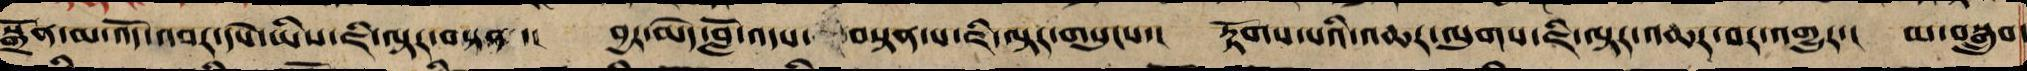སྒྲོན་མ་འོད་འབར་དཔེ་ཡིས་ཇི་ལྟར་བསྟན་། བྱར་མེད་བློ་འདས་ བསྟན་པ་ཇི་ལྟར་གསུངས་། རྟོགས་པའི་འཆར་ལུགས་ཇི་ལྟར་འཆར་བར་འགྱུར་། མ་བསྒྲུབ་
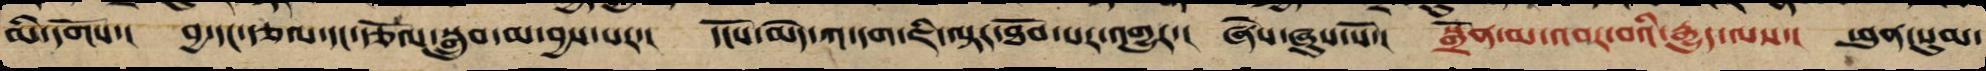མི་དགོས་། བྱ་དང་རྩལ་དང་རྩོལ་སྒྲུབ་མ་བྱས་པར་། དངོས་མེད་ཀ་དག་ཇི་ལྟར་ཐོབ་པར་འགྱུར་། ཞེས་ཞུས་སོ་། སྒྲོན་མ་འབར་བའི་རྒྱུད་ལས་། ཕུན་སུམ་
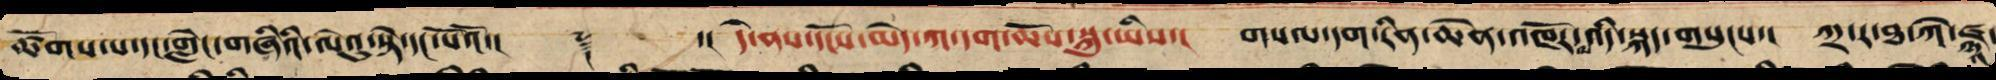ཚོགས་པ་དང་གླེང་གཞིའི་ལེའུ་སྟེ་དང་པོའོ་།། ༈ ་།། དེ་ནས་དངོས་མེད་ཀ་དག་ཆོས་སྐུ་ཡིས་། གསལ་དག་རིན་ཆེན་འཁོར་ལ་འདི་སྐད་གསུངས་། ཀྲ་ར་ཐ་ཀེ་ཛྙཱ་
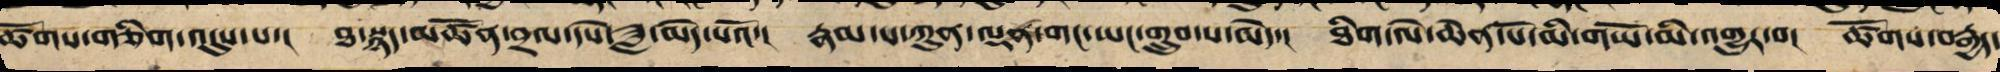ཚོགས་གཅིག་འདུས་པ་། ཐ་སྙད་མཚོན་བྲལ་དཔེ་ཟླ་མེད་པའོ་། རྣམ་པ་ཀུན་ལྡན་གང་ཡང་གྲུབ་པ་མེད་། ཐིག་ལེ་ཆེན་པོ་མི་གཡོ་མི་འགྱུར་བ་། ཚོགས་བརྒྱད་
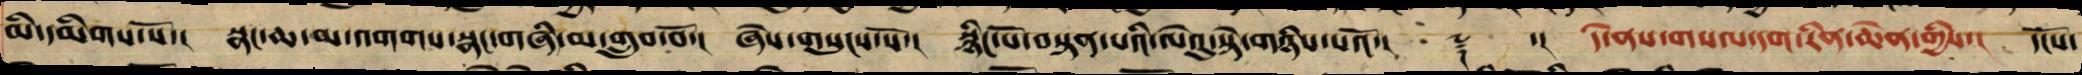མི་དམིགས་སོ་། སྣང་ཆ་མ་འགགས་སྣང་གཞི་མ་གྲུབ་བོ་། ཞེས་གསུངས་སོ་། སྙིང་པོ་བསྟན་པའི་ལེའུ་སྟེ་གཉིས་པའོ་།། ༈ ་། དེ་ནས་གསལ་དག་རིན་ཆེན་གྱིས་། དངོས་
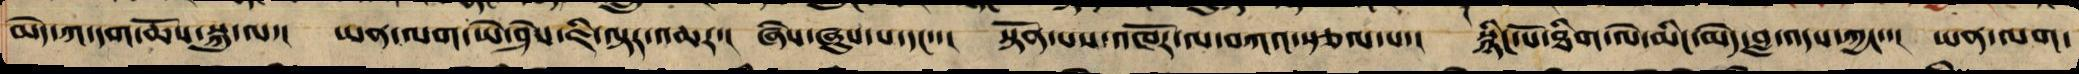མེད་ཀ་དག་ཆོས་སྐུ་ལ་། ཡན་ལག་ཡེ་ཤེས་ཇི་ལྟར་འཆར་། ཞེས་ཞུས་པ་དང་་། སྟོན་པས་འཁོར་ལ་བཀའ་སྩལ་པ་། སྙིང་པོ་ཐིག་ལེ་མིང་མེད་བློ་འདས་ཀྱང་་། ཡན་ལག་
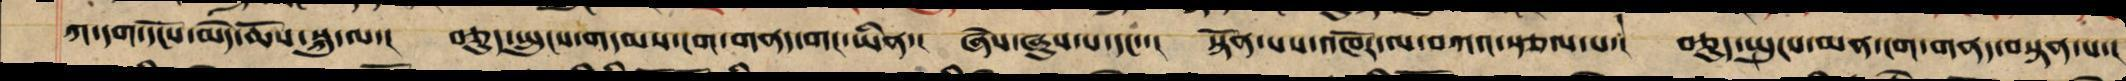ཀ་དག་དངོས་མེད་ཆོས་སྐུ་ལ་། བཅུད་སྤུངས་གདམས་ངག་གནད་གང་ཡིན་། ཞེས་ཞུས་པ་དང་་། སྟོན་པས་འཁོར་ལ་བཀའ་སྩལ་པ་། བཅུད་སྤུངས་མན་ངག་གནད་བསྟན་པ་།
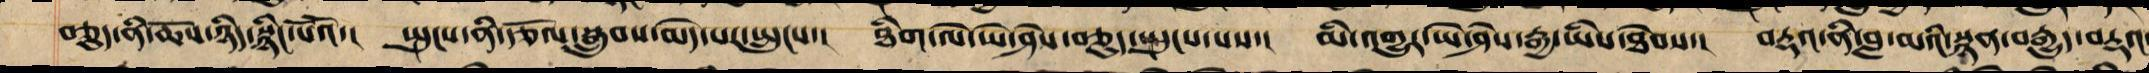བཅུད་ནི་ཆོས་ཉིད་སྙིང་པོའོ་། སྤུངས་ནི་རྩོལ་བསྒྲུབ་མེད་པར་སྤུངས་། ཐིག་ལེ་ཡེ་ཤེས་བཅུད་སྤུངས་པས་། མི་འགྱུར་ཡེ་ཤེས་རྒྱ་ཡིས་ཐེབས་། བརྡའ་ནི་བླ་མའི་སྙན་བརྒྱུད་བརྡའ
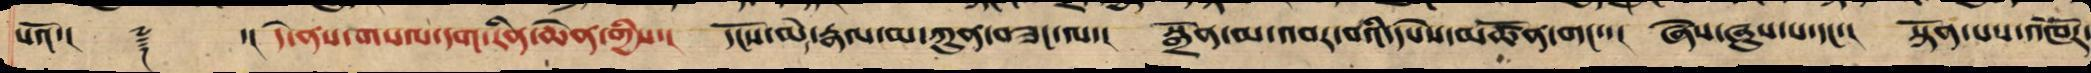པའོ་།། ༈ ་། དེ་ནས་གསལ་དག་རིན་ཆེན་གྱིས་། དངོས་མེད་རྣལ་མ་ཀུན་བཟང་ལ་། སྒྲོན་མ་འབར་བའི་དཔེས་མཚོན་གང་་། ཞེས་ཞུས་པ་དང་། སྟོན་པས་འཁོར་
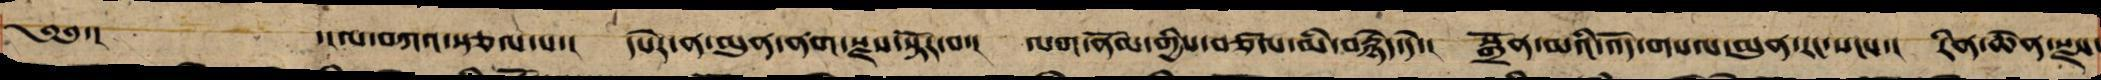༄༅་། ་།ལ་བཀའ་སྩལ་པ་། དཔེར་ན་མུན་ནག་རྫས་སྟོར་བ་། ལག་ནོམ་གྱིས་བཙལ་མི་རྙེད་དེ་། སྒྲོན་མའི་འོད་གསལ་མུན་རང་སངས་། རིན་ཆེན་རྫས་
